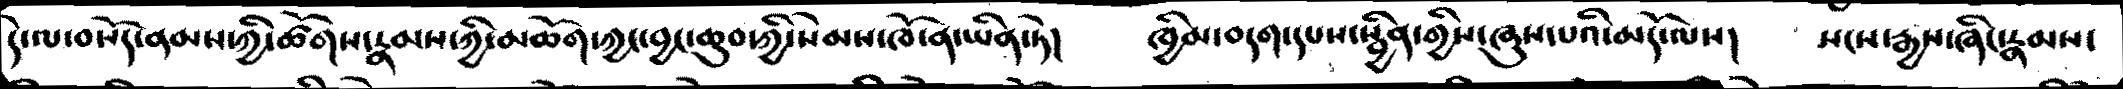དེ་ལ་བསོད་ནམས་ཀྱི་ཚོགས་རྣམས་ཀྱི་མཆོག་ཀྱང་བྱང་ཆུབ་ཀྱི་སེམས་ཁོ་ན་ཡིན་ཏེ།   ཁྱིམ་བདག་དཔས་སྦྱིན་གྱིས་ཞུས་པའི་མདོ་ལས།   སངས་རྒྱས་ཞིང་རྣམས་
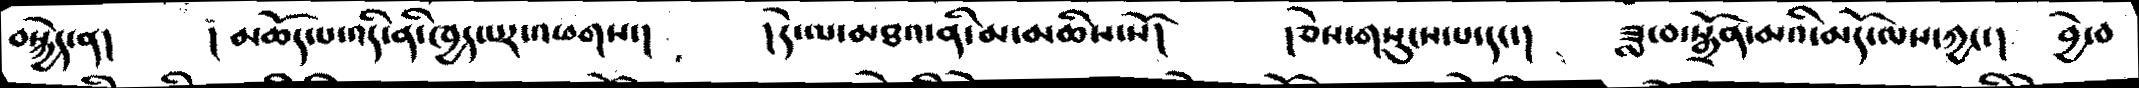བསྐྱེད་ན།    །མཆོད་པ་འདི་ནི་ཁྱད་པར་འཕགས།   །དེ་ལ་མཐའ་ནི་མ་མཆིས་སོ།   །ཅེས་གསུངས་པ་དང་།  ཟླ་བ་སྒྲོན་མའི་མདོ་ལས་ཀྱང་།   བྱེ་བ
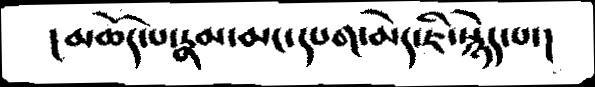།མཆོད་པ་རྣམ་མང་དཔག་མེད་ཇི་སྙེད་པ་།
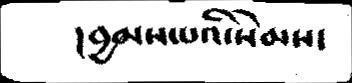།བྱམས་པའི་སེམས་
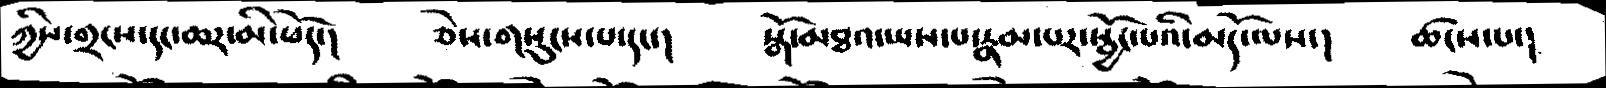ཀྱིས་གྲངས་དང་ཆར་མི་ཕོད་།    ཅེས་གསུངས་པ་དང་།   སྒོ་མཐའ་ཡས་པ་རྣམ་པར་སྦྱོང་པའི་མདོ་ལས་།    ཚངས་པ་།
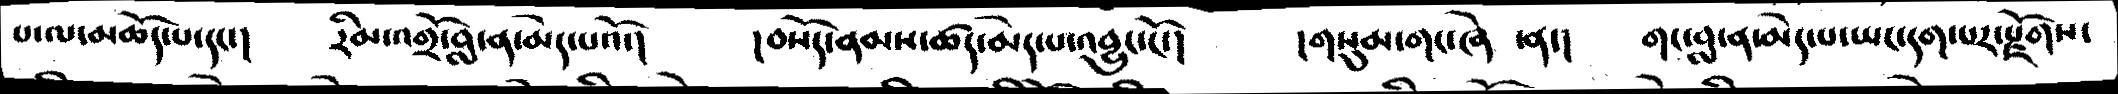པ་ལ་མཆོད་པ་དང་།   རིམ་འགྲོ་བླ་ན་མེད་པའོ་།   །བསོད་ནམས་ཚད་མེད་པ་འབྱུང་ངོ་།   །གསུམ་གང་ཞེ  ་ན་།   གང་བླ་ན་མེད་པ་ཡང་དག་པར་རྫོགས་
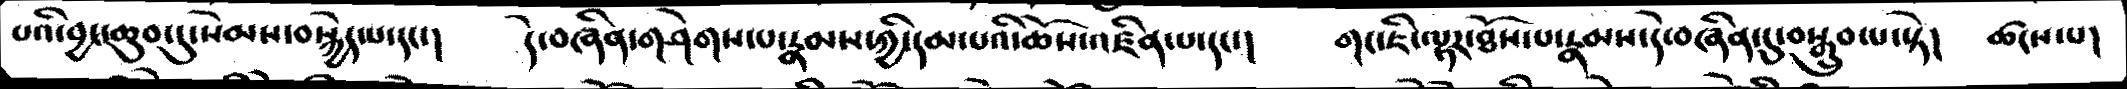པའི་བྱང་ཆུབ་དུ་སེམས་བསྐྱེད་པ་དང་།   དེ་བཞིན་གཤེགས་པ་རྣམས་ཀྱི་དམ་པའི་ཆོས་འཛིན་པ་དང་།  གང་ཇི་ལྟར་ཐོས་པ་རྣམས་དེ་བཞིན་དུ་བསྒྲུབ་པ་སྟེ།   ཚངས་པ།
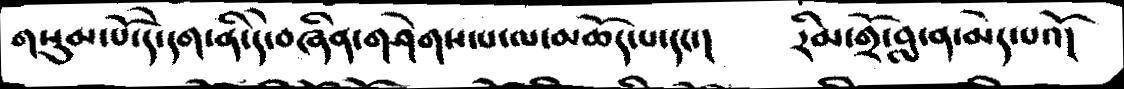གསུམ་པོ་དེ་དག་ནི་དེ་བཞིན་གཤེགས་པ་ལ་མཆོད་པ་དང་།   རིམ་འགྲོ་བླ་ན་མེད་པའོ།
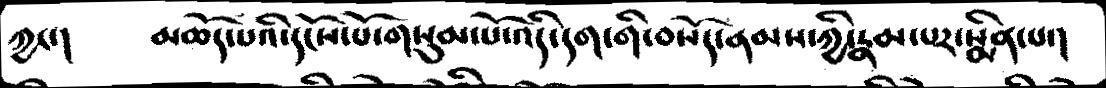ཀྱང་།   མཆོད་པའི་དངོས་པོ་གསུམ་པོ་འདི་དག་གི་བསོད་ནམས་ཀྱི་རྣམ་པར་སྨིན་པ་།
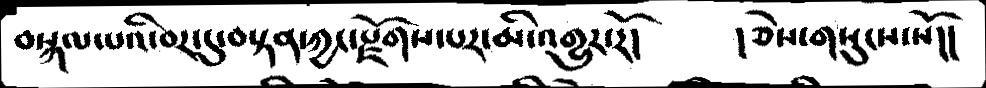བསྐལ་པའི་བར་དུ་བསྟན་ཀྱང་རྫོགས་པར་མི་འགྱུར་རོ།   །ཅེས་གསུངས་སོ།།
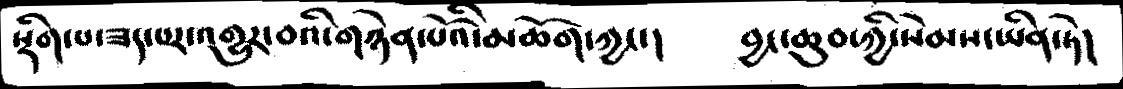སྡིག་པ་ཟད་པར་འགྱུར་བའི་གཉེན་པོའི་མཆོག་ཀྱང་།      བྱང་ཆུབ་ཀྱི་སེམས་ཡིན་ཏེ།
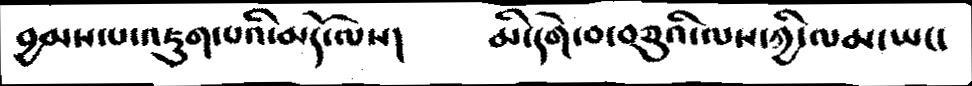བྱམས་པ་འཇུག་པའི་མདོ་ལས།   མི་དགེ་བ་བཅུའི་ལས་ཀྱི་ལམ་ཡང་
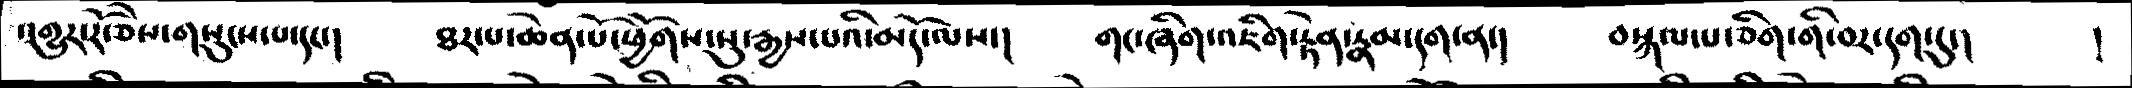འགྱུར་རོ་ཅེས་གསུངས་པ་དང་།   ཐར་པ་ཆེན་པོ་ཕྱོགས་སུ་རྒྱས་པའི་མདོ་ལས་།    གང་ཞིག་འཇིག་རྟེན་རྣམ་དག་ན་།  བསྐལ་པ་ཅིག་གི་བར་དག་དུ་།  །
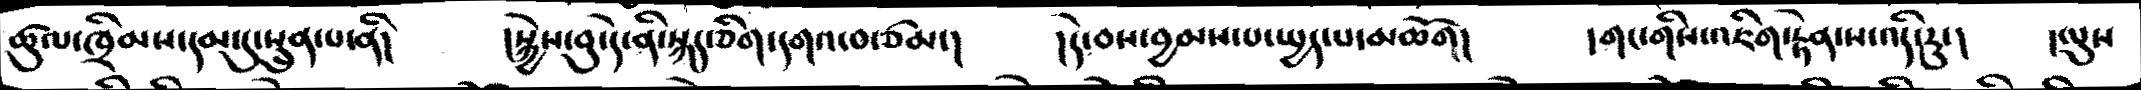ཚུལ་ཁྲིམས་དམ་དུ་སྲུན་པ་ནི།   །སྐྱེས་བུ་དེ་ནི་སྐད་ཅིག་དགའ་བ་ཙམ་།   །དེ་བས་བྱམས་པ་སྤྱད་པ་མཆོག།   །གང་གིས་འཇིག་རྟེན་ས་འདི་རུ་།   །ལུས
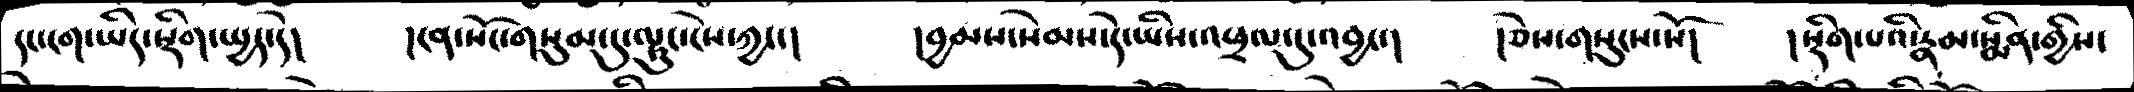དང་ངག་ཡིད་སྡིག་སྤྱད་དེ།  །ངན་སོང་གསུམ་དུ་ལྟུང་ངེས་ཀྱང་།   །བྱམས་སེམས་དེ་ཡིས་འཕྲལ་དུ་འབྱང་།   །ཅེས་གསུངས་སོ།   །སྡིག་པའི་རྣམ་སྨིན་གྱིས་
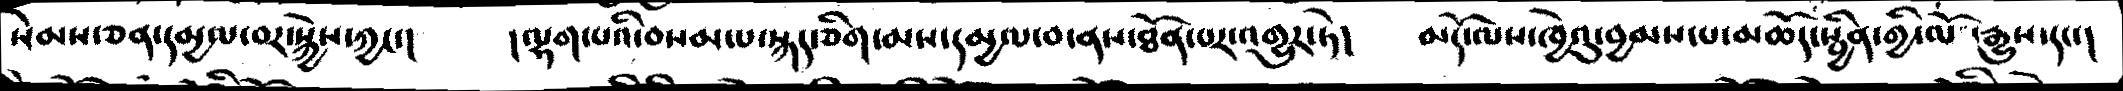སེམས་ཅན་དམྱལ་བར་སྐྱེས་ཀྱང་།   །ལྷག་པའི་བསམ་པ་སྐད་ཅིག་མས་དམྱལ་བ་ནས་ཐོན་པར་འགྱུར་ཏེ།   མདོ་ལས་ཁྱེའུ་བྱམས་པམཆོད་སྦྱིན་གྱི་ལོ་རྒྱུས་དང་།
